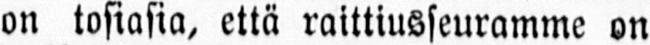on tosiasia, että raittiusseuramme on
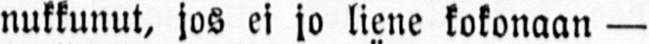nukkunut, jos ei jo liene kokonaan —
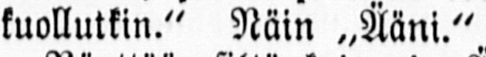kuollutkin." Näin „Ääni."
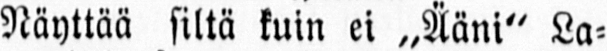Näyttää siltä kuin ei „Ääni" La-
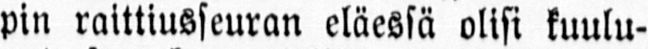pin raittiusseuran eläessä olisi kuulu-
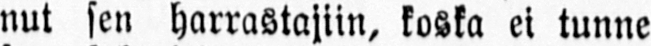nut sen harrastajiin, koska ei tunne
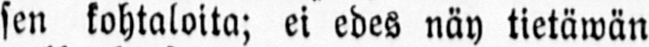sen kohtaloita; ei edes näy tietäwän
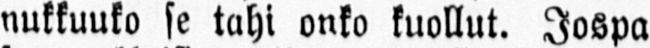nukkuuko se tahi onko kuollut. Jospa
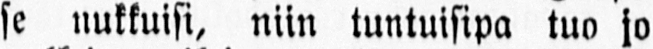se nukkuisi, niin tuntuisipa tuo jo
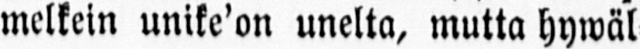melkein unike’on unelta, mutta hywäl-
